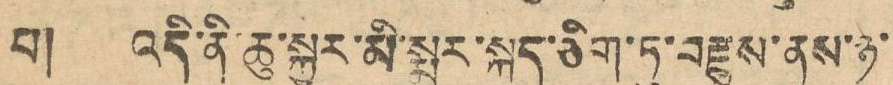པ། འདི་ནི་ཆུ་སྐྱར་མི་སྨྲར་སྐད་ཅིག་ཏུ་བརྫུས་ནས་ཉ་
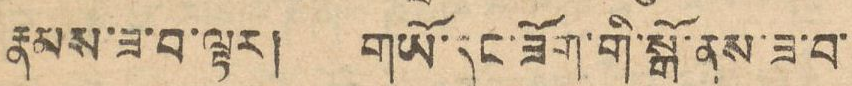རྣམས་ཟ་བ་ལྟར། གཡོ་དང་ཟོག་གི་སྒོ་ནས་ཟ་བ་
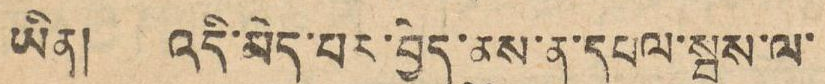ཡིན། འདི་མིན་པར་བྱེད་ནུས་ན་དཔལ་སྦས་ལ་
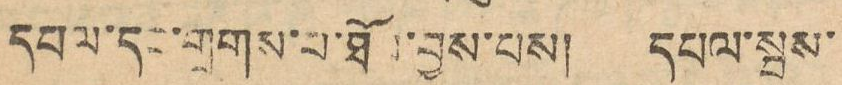དཔལ་དང་གྲགས་པ་ཐོབ་བྱས་པས། དཔལ་སྦས་
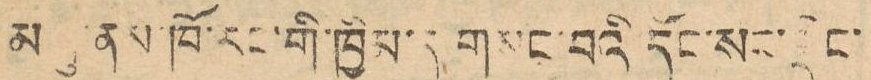བཏུས་ནས་ཁོ་རང་གི་ཁྱིམ་དུ་གསང་བའི་དོང་སང་སྡེང
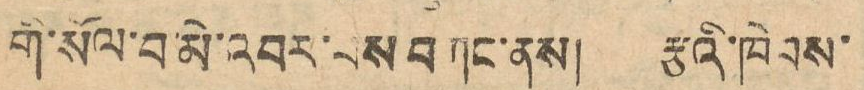གི་སོལ་བ་མི་འབར་བས བཀང་ནས། རྩའི་ཁེབས་
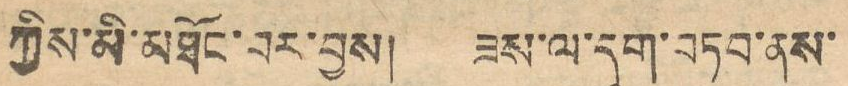ཀྱིས་མི་མཐོང་བར་བྱས། ཟས་ལ་དུག་བཏབ་ནས་
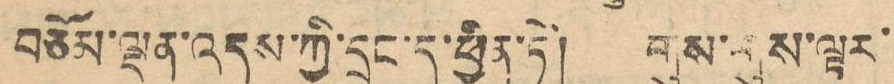བཅོམ་ལྡན་འདས་ཀྱི་དྲུང་དུ་ཕྱིན་ཏེ། གུས་གུས་ལྟར་
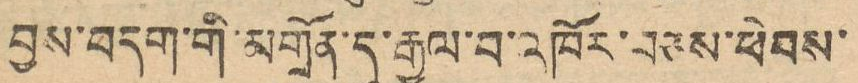བྱས་བདག་གི་མགྲོན་དུ་རྒྱལ་བ་འཁོར་བཅས་ཕེབས་
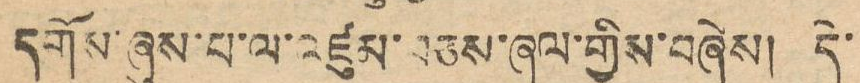དགོས་ཞུས་པ་ལ་འཛུམ་བཅས་ཞལ་གྱིས་བཞེས། དེ་
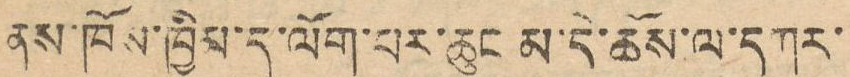ནས་ཁོས་ཁྱིམ་དུ་ལོག་པར་ཆུང་མ་དེ་ཆོས་ལ་དཀར་
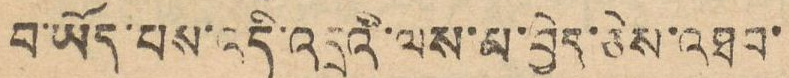བ་ཡོད་པས་འདི་འདྲའི་ལས་མ་བྱེད་ཅེས་འཐབ་
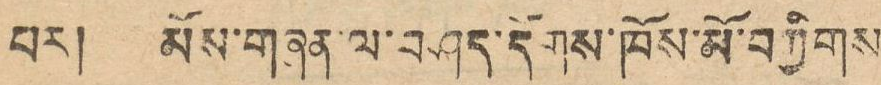བར། མོས་གཞན་ལ་བཤད་དོགས་ཁོས་མོ་བཀྱིགས
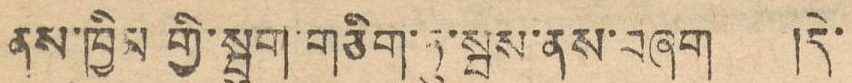ནས་ཁྱིམ གྱི་སྦུག་གཅིག་ཏུ་སྦས་ནས་བཞག །དེ་
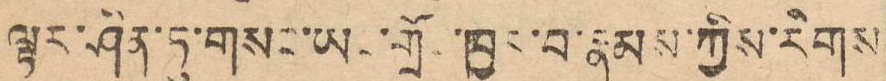ལྟར་ཤིན་ཏུ་གསང་ཡང་གྲོང་ཁྱེར་བ་རྣམས་ཀྱིས་རིགས
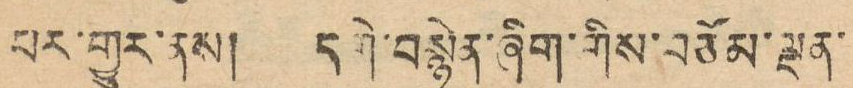པར་གྱུར་ནས། དགེ་བསྙེན་ཞིག་གིས་བཅོམ་ལྡན་
